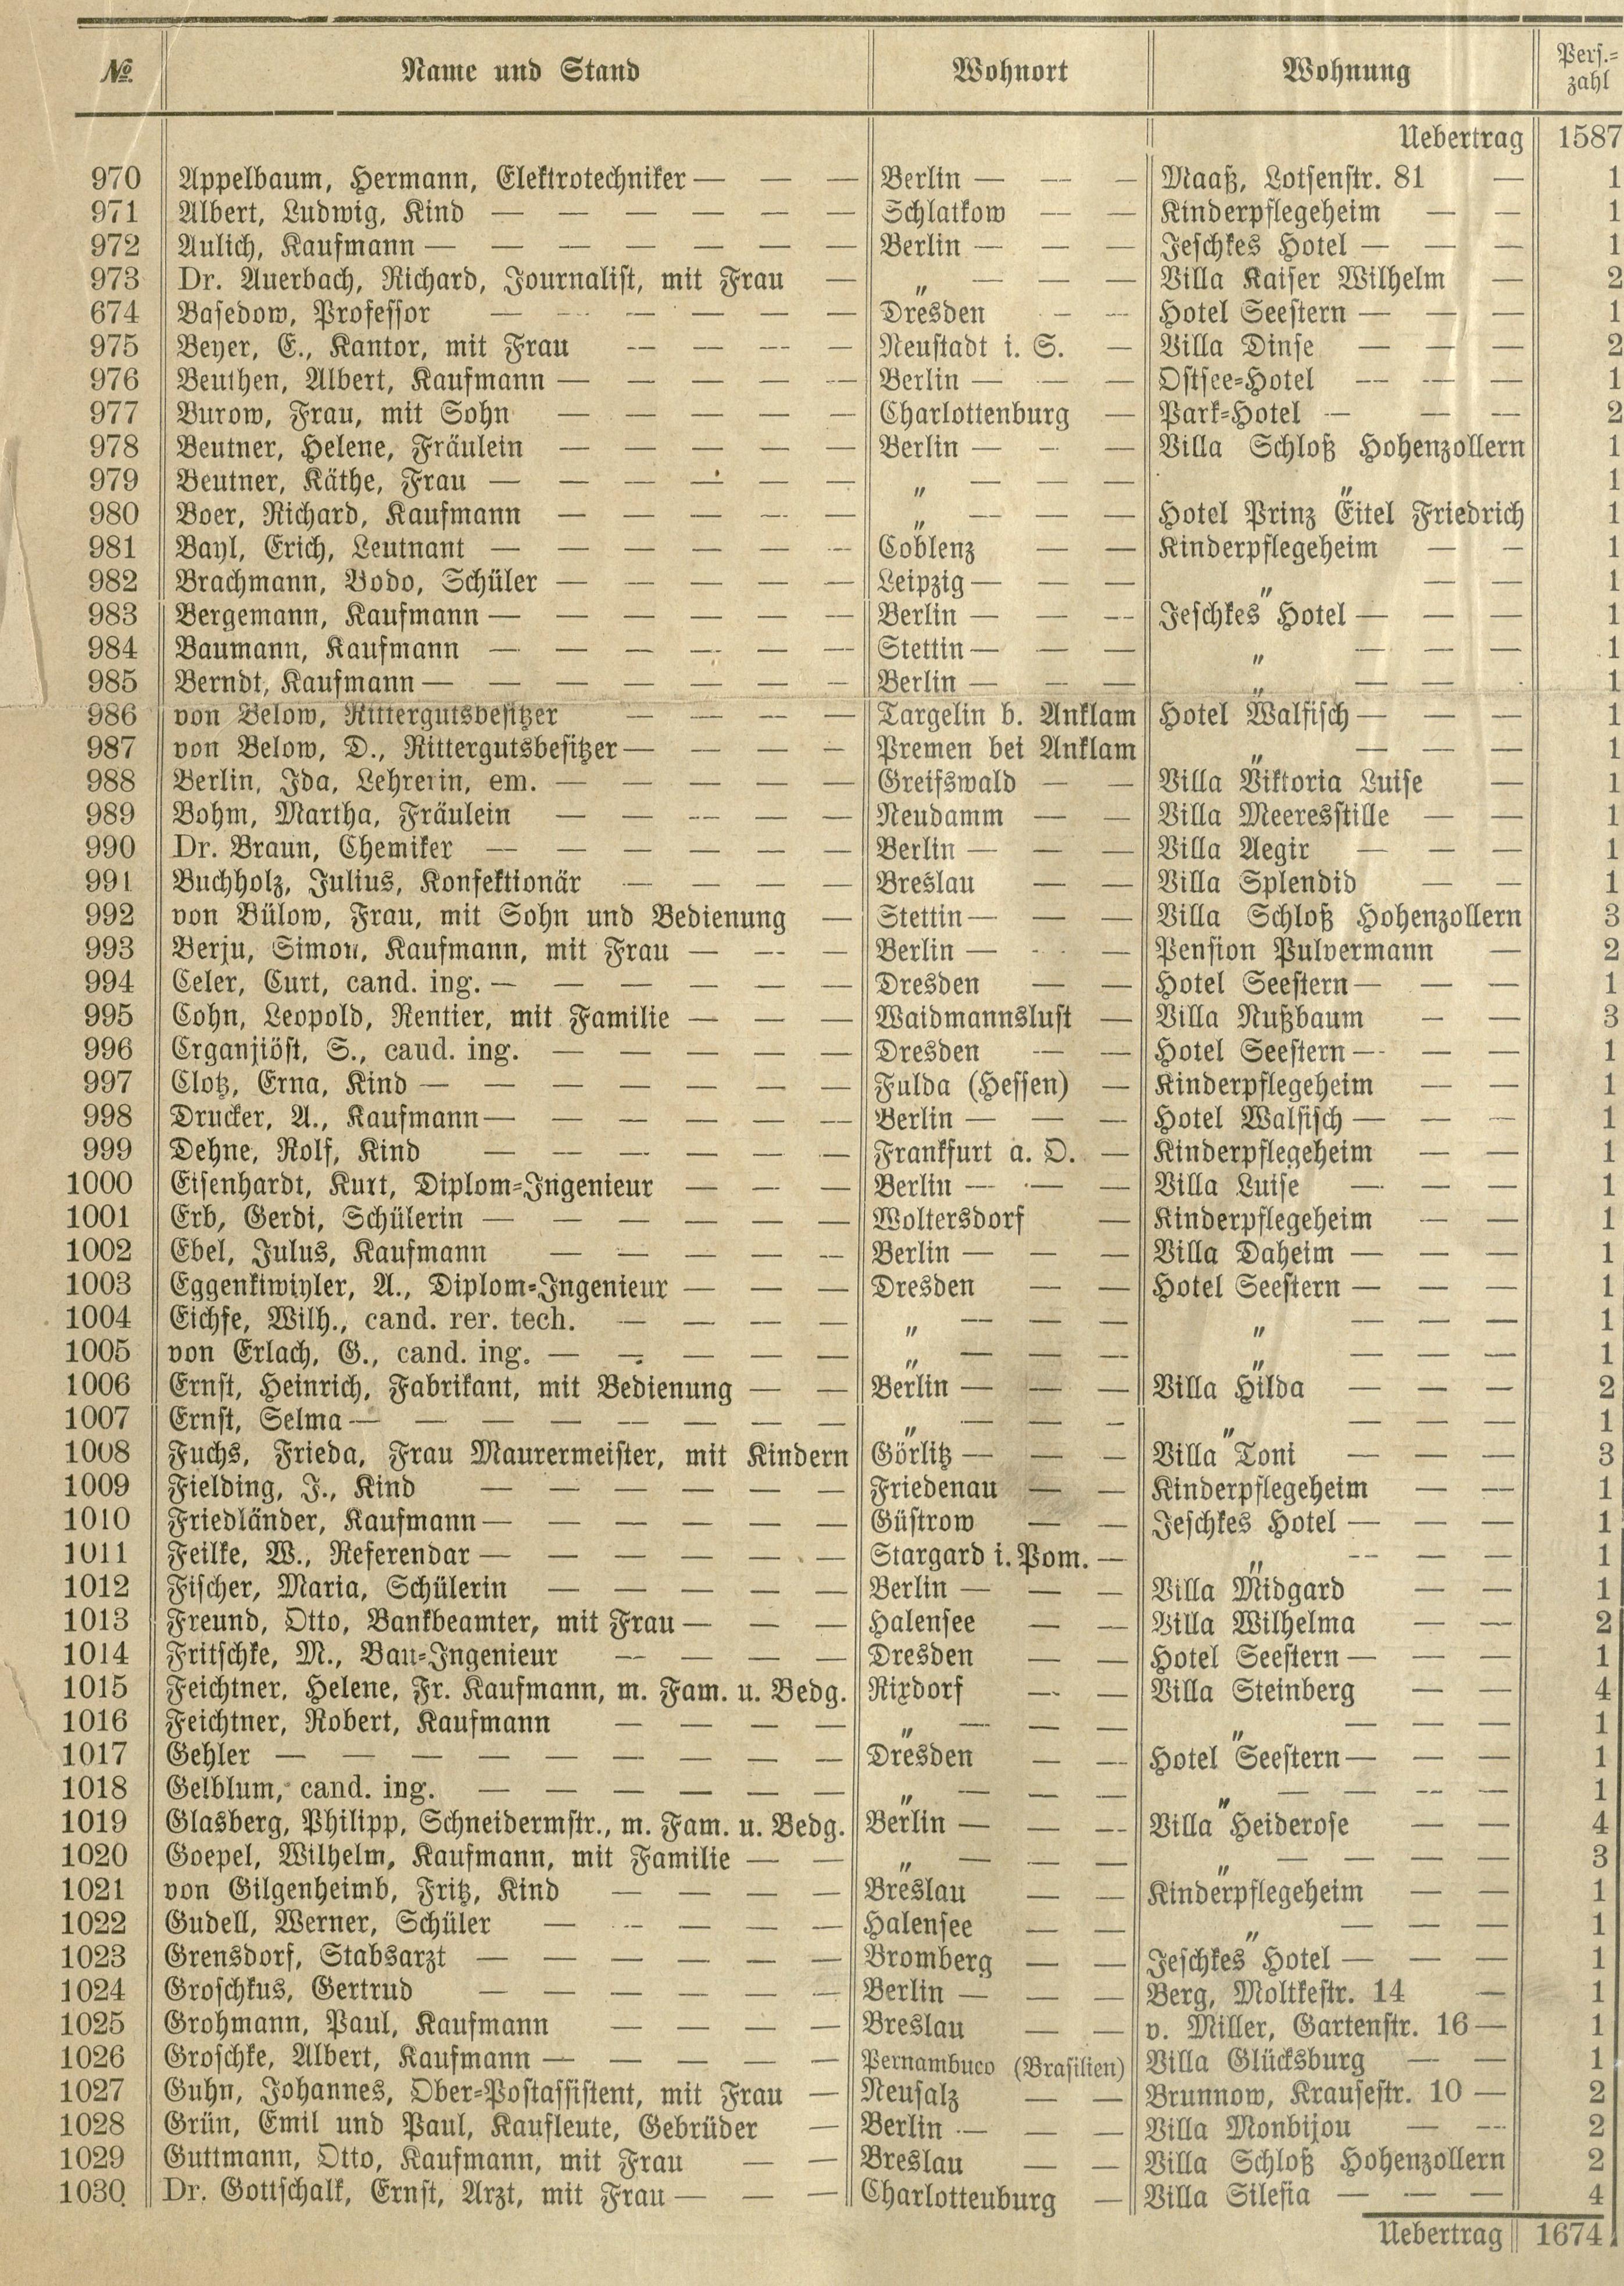No. | Name und Stand | Wohnort | Wohnung | Pers.-zahl
Uebertrag | 1587
970 | Appelbaum, Hermann, Elektrotechniker | Berlin | Maaß, Lotsenstr. 81 | 1
971 | Albert, Ludwig, Kind | Schlatkow | Kinderpflegeheim | 1
972 | Aulich, Kaufmann | Berlin | Jeschkes Hotel | 1
973 | Dr. Auerbach, Richard, Journalist, mit Frau | „ | Villa Kaiser Wilhelm | 2
674 | Basedow, Professor | Dresden | Hotel Seestern | 1
975 | Beyer, E., Kantor, mit Frau | Neustadt i. S. | Villa Dinse | 2
976 | Beuthen, Albert, Kaufmann | Berlin | Ostsee=Hotel | 1
977 | Burow, Frau, mit Sohn | Charlottenburg | Park=Hotel | 2
978 | Beutner, Helene, Fräulein | Berlin | Villa Schloß Hohenzollern | 1
979 | Beutner, Käthe, Frau | „ | „ | 1
980 | Boer, Richard, Kaufmann | „ | Hotel Prinz Eitel Friedrich | 1
981 | Bayl, Erich, Leutnant | Coblenz | Kinderpflegeheim | 1
982 | Brachmann, Bodo, Schüler | Leipzig | „ | 1
983 | Bergemann, Kaufmann | Berlin | Jeschkes Hotel | 1
984 | Baumann, Kaufmann | Stettin | „ | 1
985 | Berndt, Kaufmann | Berlin | „ | 1
986 | von Below, Rittergutsbesitzer | Targelin b. Anklam | Hotel Walfisch | 1
987 | von Below, D., Rittergutsbesitzer | Premen bei Anklam | „ | 1
988 | Berlin, Ida, Lehrerin, em. | Greifswald | Villa Viktoria Luise | 1
989 | Bohm, Martha, Fräulein | Neudamm | Villa Meeresstille | 1
990 | Dr. Braun, Chemiker | Berlin | Villa Aegir | 1
991 | Buchholz, Julius, Konfektionär | Breslau | Villa Splendid | 1
992 | von Bülow, Frau, mit Sohn und Bedienung | Stettin | Villa Schloß Hohenzollern | 3
993 | Berju, Simon, Kaufmann, mit Frau | Berlin | Pension Pulvermann | 2
994 | Celer, Curt, cand. ing. | Dresden | Hotel Seestern | 1
995 | Cohn, Leopold, Rentier, mit Familie | Waidmannsluft | Villa Nußbaum | 3
996 | Crganjiöst, S., caud. ing. | Dresden | Hotel Seestern | 1
997 | Clotz, Erna, Kind | Fulda (Hessen) | Kinderpflegeheim | 1
998 | Drucker, A., Kaufmann | Berlin | Hotel Walsisch | 1
999 | Dehne, Rolf, Kind | Frankfurt a. D. | Kinderpflegeheim | 1
1000 | Eisenhardt, Kurt, Diplom=Ingenieur | Berlin | Villa Luise | 1
1001 | Erb, Gerdi, Schülerin | Woltersdorf | Kinderpflegeheim | 1
1002 | Ebel, Julus, Kaufmann | Berlin | Villa Daheim | 1
1003 | Eggenkiwiyler, A., Diplom=Ingenieur | Dresden | Hotel Seestern | 1
1004 | Eichfe, Wilh., cand. rer. tech. | „ | „ | 1
1005 | von Erlach, G., cand. ing. | „ | „ | 1
1006 | Ernst, Heinrich, Fabrikant, mit Bedienung | Berlin | Villa Hilda | 2
1007 | Ernst, Selma | „ | „ | 1
1008 | Fuchs, Frieda, Frau Maurermeister, mit Kindern | Görlitz | Villa Toni | 3
1009 | Fielding, J., Kind | Friedenau | Kinderpflegeheim | 1
1010 | Friedländer, Kaufmann | Güstrow | Jeschkes Hotel | 1
1011 | Feilke, W., Referendar | Stargard i. Pom. | „ | 1
1012 | Fischer, Maria, Schülerin | Berlin | Villa Midgard | 1
1013 | Freund, Otto, Bankbeamter, mit Frau | Halensee | Villa Wilhelma | 2
1014 | Fritschke, M., Bau=Ingenieur | Dresden | Hotel Seestern | 1
1015 | Feichtner, Helene, Fr. Kaufmann, m. Fam. u. Bedg. | Rixdorf | Villa Steinberg | 4
1016 | Feichtner, Robert, Kaufmann | „ | „ | 1
1017 | Gehler | Dresden | Hotel Seestern | 1
1018 | Gelblum, cand ing. | „ | „ | „ | 1
1019 | Glasberg, Philipp, Schneidermstr., m Fam. u. Bedg. | Berlin | Villa Heiderose | 4
1020 | Goepel, Wilhelm, Kaufmann, mit Familie | „ | „ | 3
1021 | von Gilgenheimb, Fritz, Kind | Breslau | Kinderpflegeheim | 1
1022 | Gudell, Werner, Schüler | Halensee | „ | 1
1023 | Grensdorf, Stabsarzt | Bromberg | Jeschkes Hotel | 1
1024 | Groschkus, Gertrud | Berlin | Berg, Moltkestr. 14 | 1
1025 | Grohmann, Paul, Kaufmann | Breslau | v. Miller, Gartenstr. 16 | 1
1026 | Groschke, Albert, Kaufmann | Pernambuco (Brasilien) | Villa Glücksburg | 1
1027 | Guhn, Johannes, Ober=Postassistent, mit Frau | Neusalz | Brunnow, Krausestr. 10 | 2
1028 | Grün, Emil und Paul, Kaufleute, Gebrüder | Berlin | Villa Monbijou | 2
1029 | Guttmann, Otto, Kaufmann, mit Frau | Breslau | Villa Schloß Hohenzollern | 2
1030 | Dr. Gottschalk, Ernst, Arzt, mit Frau | Charlotteuburg | Villa Silesia | 4
Uebertrag | 1674
